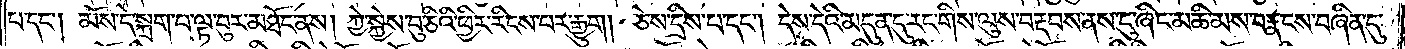པ་དང༌། མོས་དེ་སྐྲག་པ་ལྟ་བུར་མཐོང་ནས། ཀྱེ་སྐྱེས་བུ་ཅིའི་ཕྱིར་རིངས་པར་རྒྱུག། ཅེས་དྲིས་པ་དང༌། དེས་དེའི་མདུན་དུ་རང་གིས་ལུས་བརྡབས་ནས་ངུ་ཞིང་མཆི་མས་བརྣངས་བཞིན་དུ་
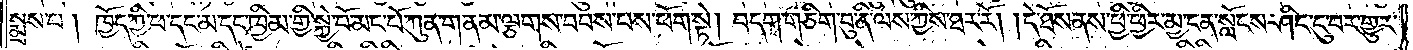སྨྲས་པ། ཁྱོད་ཀྱི་ཕ་དང་མ་དང་ཁྱིམ་གྱི་སྐྱེ་བོ་མང་པོ་ཀུན་གནམ་ལྕགས་བབས་པས་ཕོག་སྟེ། བདག་གཅིག་བུ་ནི་ལས་ཀྱིས་ཐར་རོ། །དེ་ཐོས་ནས་ཕྱི་ཕྱིར་མྱ་ངན་སློང་ཤིང་ངུ་བར་གྱུར་
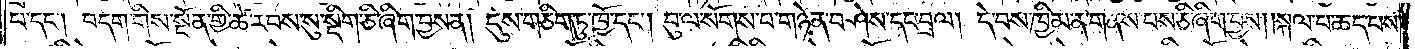པ་དང༌། བདག་གིས་སྔོན་གྱི་ཚེ་རབས་སུ་སྡིག་ཅི་ཞིག་བྱས་ན། དུས་གཅིག་ཏུ་ཁྱོ་དང་བུ་ལ་སོགས་པ་གཉེན་བཤེས་དང་བྲལ། དེ་བས་ཁྱིམ་ན་གནས་པས་ཅི་ཞིག་བྱས། །སྐལ་པ་ཆད་པས་
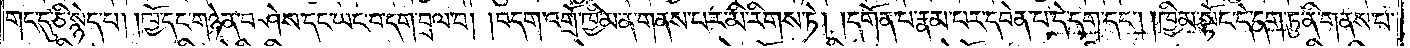གང་དུ་ཅི་སྙེད་པ། །ཁྱོ་དང་གཉེན་བཤེས་དང་ཡང་བ་དག་བྲལ་བ། །བདག་འགྲོ་ཁྱིམ་ན་གནས་པར་མི་རིགས་ཏེ། །དགོན་པ་རྣམ་པར་དབེན་པ་དེ་དག་དང༌། །ཁྱིམ་སྟོང་དེ་དག་ཏུ་ནི་གནས་པ་
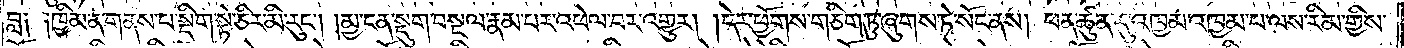བླ༑ ༑ཁྱིམ་ན་གནས་པ་སྡིག་སྟེ་ཅིར་མི་རུང༌། །མྱ་ངན་སྡུག་བསྔལ་རྣམ་པར་འཕེལ་བར་འགྱུར། །དེར་ཕྱོགས་གཅིག་ཏུ་ཞུགས་ཏེ་སོང་ནས། ཕན་ཚུན་དུ་འཁྱམ་འཁྱམ་པ་ལས་རིམ་གྱིས་
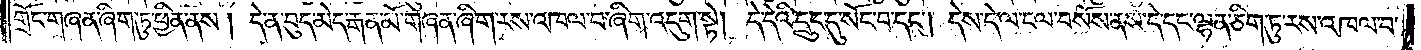གྲོང་གཞན་ཞིག་ཏུ་ཕྱིན་ནས། དེ་ན་བུད་མེད་རྒན་མོ་གཞན་ཞིག་རས་འཁལ་བ་ཞིག་འདུག་སྟེ། དེ་དེའི་དྲུང་དུ་སོང་བ་དང༌། དེས་དེ་ལ་ངལ་བསོས་ནས་དེ་དང་ལྷན་ཅིག་ཏུ་རས་འཁལ་བ་
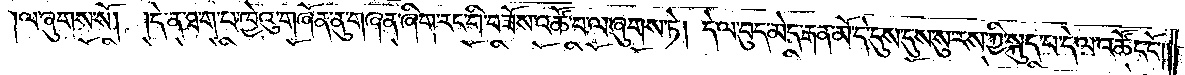ལ་ཞུགས་སོ། །དེ་ན་ཐག་པ་ཁྱེའུ་གཞོན་ནུ་གཞན་ཞིག་རང་གི་བཟོས་འཚོ་བ་ལ་ཞུགས་ཏེ། དེ་ལ་བུད་མེད་རྒན་མོ་དེ་དུས་དུས་སུ་རས་ཀྱི་སྐུད་པ་དེ་ལ་འཚོང་ངོ༌༎
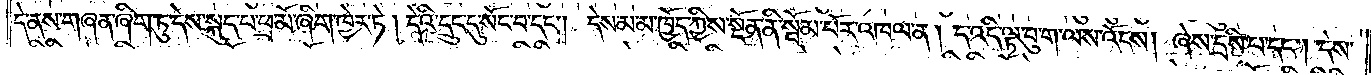དེ་ནས་གཞན་ཞིག་ཏུ་དེས་སྐུད་པ་ཕྲ་མོ་ཞིག་ཁྱེར་ཏེ། དེའི་དྲུང་དུ་སོང་བ་དང༌། དེས་མ་མ་ཁྱོད་ཀྱིས་སྔོན་ནི་སྦོམ་པོར་འཁལ་ན། ད་འདི་ལྟ་བུ་ག་ལས་འོངས། ཞེས་དྲིས་པ་དང༌། དེས་
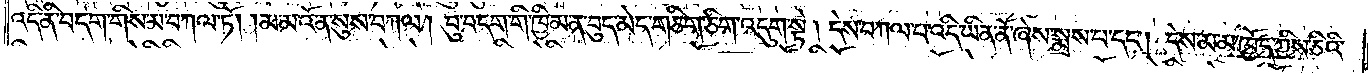འདི་ནི་བདག་གིས་མ་བཀལ་ཏོ། །མ་མ་འོ་ན་སུས་བཀལ། བུ་བདག་གི་ཁྱིམ་ན་བུད་མེད་གཅིག་ཅིག་འདུག་སྟེ། དེས་བཀལ་བ་འདི་ཡིན་ནོ་ཞེས་སྨྲས་པ་དང༌། དེས་མ་མ་ཁྱོད་ཀྱིས་ཅིའི་
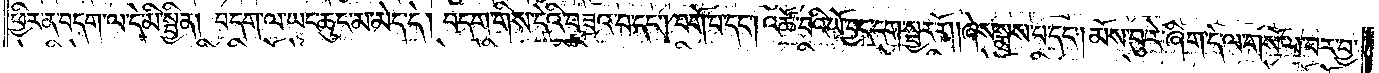ཕྱིར་ན་བདག་ལ་དེ་མི་སྦྱིན། བདག་ལ་ཡང་ཆུང་མ་མེད་དེ། བདག་གིས་དེའི་བཟའ་བ་དང༌། བགོ་པ་དང༌། འཚོ་བའི་ཡོ་བྱད་དག་སྦྱར་རོ། །ཞེས་སྨྲས་པ་དང༌། མོས་བུ་རེ་ཞིག་དེ་ལ་གསོལ་བར་བྱ་
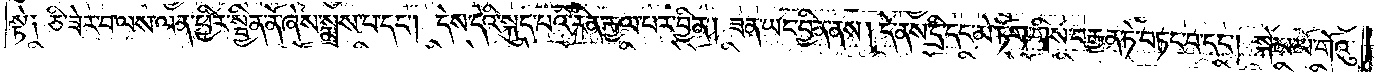སྟེ༑ ཅི་ཟེར་བ་ལས་ལན་ཕྱིར་སྦྱིན་ནོ་ཞེས་སྨྲས་པ་དང༌། དེས་དེའི་སྐུད་པའི་རིན་རྒྱལ་པར་བྱིན། ཟན་ཡང་བྱིན་ནས། དེ་ནས་དྲི་དང་མེ་ཏོག་གིས་བརྒྱན་ཏེ་བཏང་བ་དང༌། སྐེམ་མོ་གོའུ་
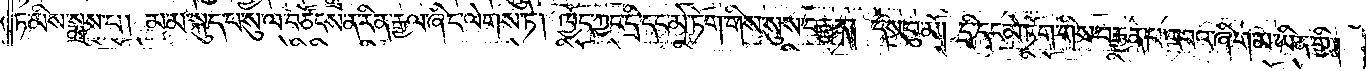ཏ་མིས་སྨྲས་པ། མ་མ་སྐུད་པ་སུ་ལ་བཙོངས་ན་རིན་རྒྱལ་ཞིང་ལེགས་ཏེ། ཁྱོད་ཀྱང་དྲི་དང་མེ་ཏོག་གིས་སུས་བརྒྱན། དེས་བུ་མོ། །དྲི་དང་མེ་ཏོག་གིས་བརྒྱན་པ་འབའ་ཞིག་མ་ཡིན་གྱི།
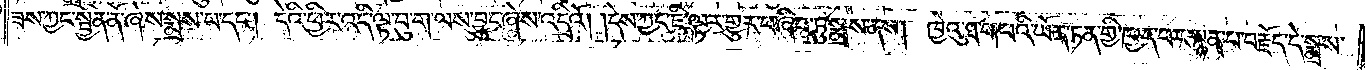ཟས་ཀྱང་སྦྱིན་ནོ་ཞེས་སྨྲས་པ་དང༌། དེའི་ཕྱིར་འདི་ལྟ་བུ་ག་ལས་བྱུང་ཞེས་འདྲིའོ། །དེས་ཀྱང་ཇི་ལྟར་གྱུར་པ་ཞིབ་ཏུ་སྨྲས་ནས། ཁྱེའུ་ཐ་ག་པའི་ཡོན་ཏན་གྱི་ཁྱད་པར་སྙན་པ་བརྗོད་དེ་སྨྲས་
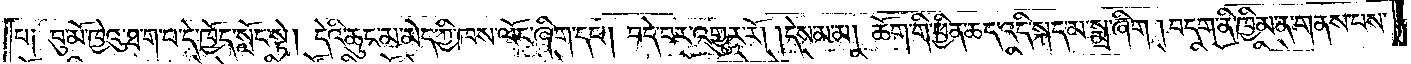པ༑ བུ་མོ་ཁྱེའུ་ཐ་ག་པ་དེ་ཁྱོད་སློང་སྟེ། དེའི་ཆུང་མ་མེད་ཀྱི་ཁས་ལོང་ཞིག་དང༌། བདེ་བར་འགྱུར་རོ། །དེས་མ་མ། ཆོག་གི་ཕྱིན་ཆད་སྐད་མ་སྨྲ་ཞིག། བདག་ནི་ཁྱིམ་ན་གནས་པས་
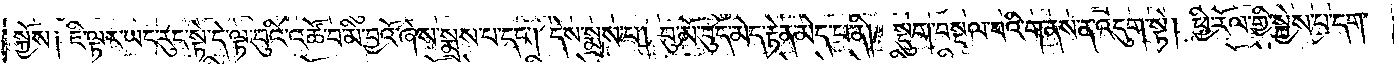སྐྱོས༑ ཇི་ལྟར་ཡང་རུང་སྟེ་དེ་ལྟ་བུའི་འཚོ་བ་མི་བྱའོ་ཞེས་སྨྲས་པ་དང༌། དེས་སྨྲས་པ། བུ་མོ་བུད་མེད་རྟེན་མེད་པ་ནི། སྡུག་བསྔལ་བའི་གནས་ན་འདུག་སྟེ། ཕྱི་རོལ་གྱི་སྐྱེས་པ་དག་
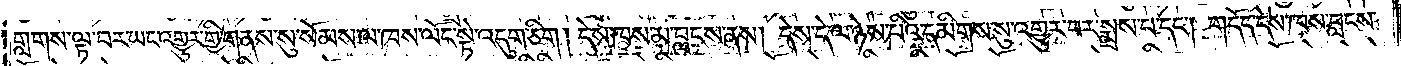གླགས་ལྟ་བར་ཡང་འགྱུར་གྱི་གནས་སུ་སོམས་ལ་ཁས་ལོང་སྟེ་འདུག་ཅིག། དེས་ཁས་མ་བླངས་ནས། དེས་དེ་ལ་ཉེས་པའི་དམིགས་སུ་འགྱུར་བར་སྨྲས་པ་དང༌། གདོད་དེས་ཁས་བླངས་
